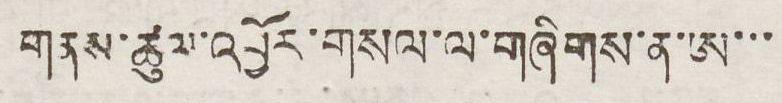གནས་ཚུལ་འབྱོར་གསལ་ལ་གཞིགས་ན་ཨ་་་
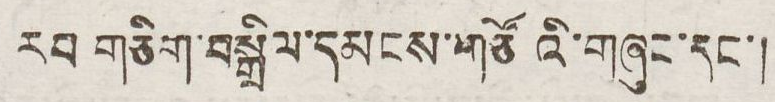རབ གཅིག་བསྒྲིལ་དམངས་གཙོའི་གཞུང་དང་།
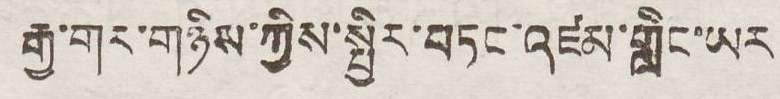རྒྱ་གར་གཉིས་ཀྱིས་སྤྱིར་བཏང་འཛམ་གླིང་ཡར་
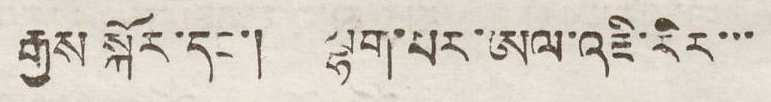རྒྱས སྐོར་དང་། ལྷག་པར་ཨལ་འཇི་རིར་་་
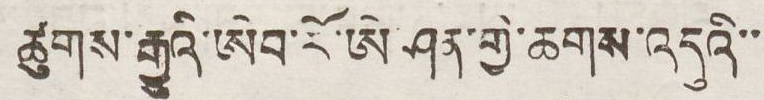ཚུགས་རྒྱུའི་ཨེབ་རོ་ཨེ་ཤན་གྱི་ཆགས་འདུའི་་
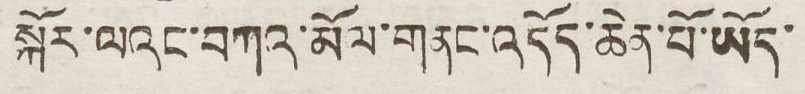སྐོར་ལའང་བཀའ་མོལ་གནང་འདོད་ཆེན་པོ་ཡོད་
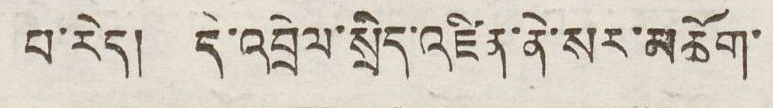པ་རེད། དེ་འབྲེལ་སྲིད་འཛིན་ནེ་སར་མཆོག་
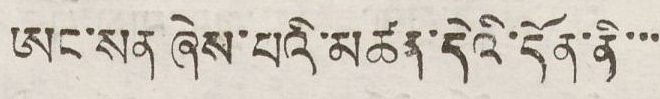ཨང་སན ཞེས་པའི་མཚན་དེའི་དོན་ནི་་་
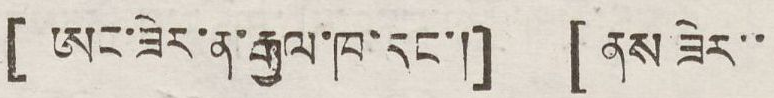[ཨང་ཟེར་ན་རྒྱལ་ཁ་དང་།]   [ནས་ཟེར་་
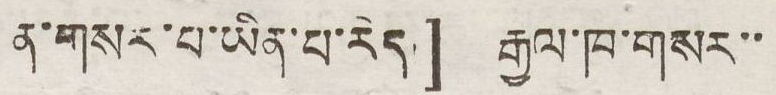ན་གསར་པ་ཡིན་པ་རེད]  རྒྱལ་ཁ་གསར་་
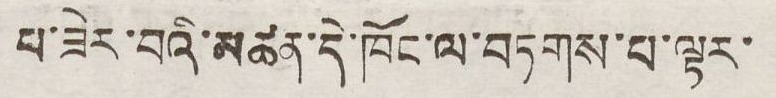པ་ཟེར་བའི་མཚན་དེ་ཁོང་ལ་བཏགས་པ་ལྟར་
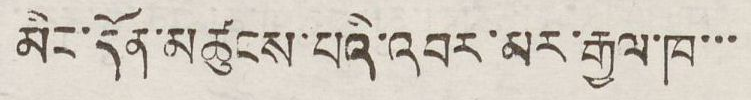མིང་དོན་མཚུངས་པའི་འབར་མར་རྒྱལ་ཁ་་་
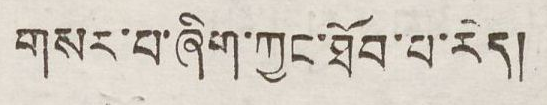གསར་པ་ཞིག་ཀྱང་ཐོབ་པ་རེད།།
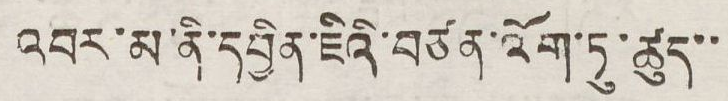འབར་མ་ནི་དབྱིན་ཇིའི་བཙན་འོག་ཏུ་ཚུད་་
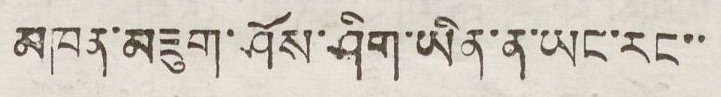མཁན་མཇུག་ཤོས་ཤིག་ཡིན་ན་ཡང་རང་་
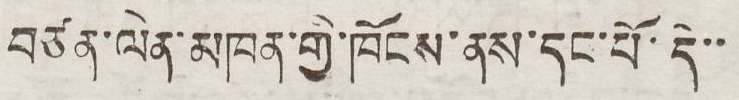བཙན་ལེན་མཁན་གྱི་ཁོངས་ནས་དང་པོ་དེ་་
